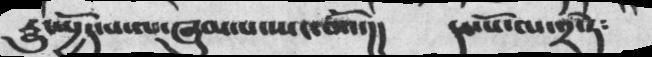རྱུ་སྤྱོད་པ་ལ་ཞུམ་པ་ཡང་བའོ་།།    དང་པོ་ལ་༢་ཏེ༴
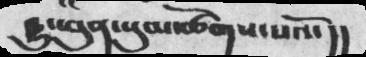རྱུ་ཕུན་སུམ་ཚོགས་པའོ་།།
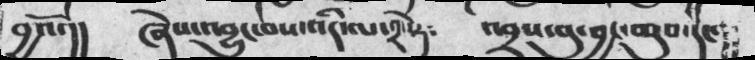བྱའོ་།།   ཞེས་འབྱུང་བས་འདི་ལ་༢་སྟེ༴    འབྲས་བུ་བྱང་ཆུབ་དང་།།
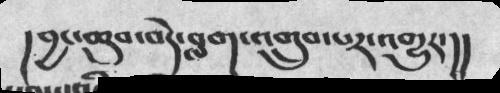།བྱང་ཆུབ་བདེ་བླག་འགྲུབ་པརང་འགྱུར་།།
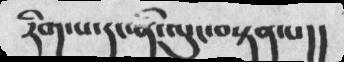རིག་པ་དང་ནི་ལུང་བསྟན་པ།།
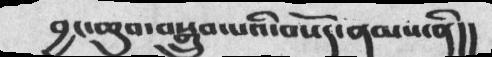བྱང་ཆུབ་བསྒྲུབ་པའི་བསོད་ནམས་ནི།།
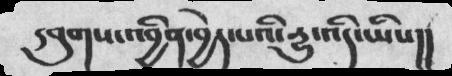དབུགས་འབྱིན་བྱེད་པའི་རྱུ་འདི་ཡིས།།
